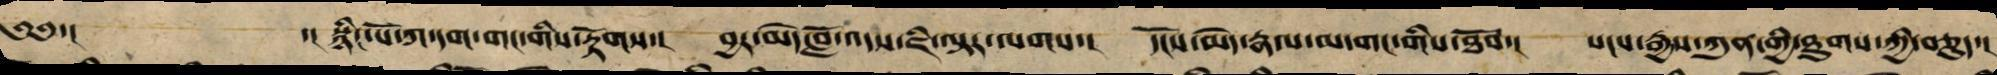༄༅་། ་། སྙིང་པོ་ཀ་དག་གང་གིས་རྟོགས་། བྱར་མེད་བློ་འདས་ཇི་ལྟར་ལགས་། དངོས་མེད་རྣལ་མ་གང་གིས་ཐོབ་། སངས་རྒྱས་ཀུན་གྱི་ཐུགས་ཀྱི་བཅུད་།
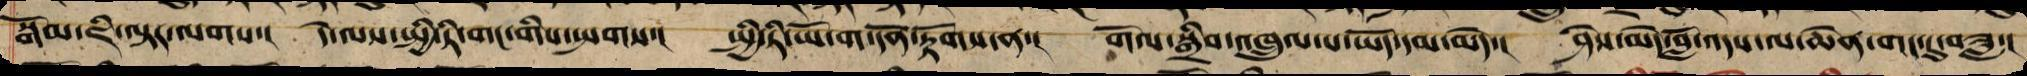སྒོམ་ཇི་ལྟར་ལགས་། དེ་ལས་སྤྱི་ཏི་གང་གིས་སྤགས་། སྤྱི་ཏི་ཡོ་གའི་དོན་རྟོགས་ནས་། གོལ་སྒྲིབ་འཁྲུལ་པ་ཡོད་དམ་མེད་། ཤེས་མེད་བློ་འདས་ལ་ཆེན་གང་དུ་བཟླ་།
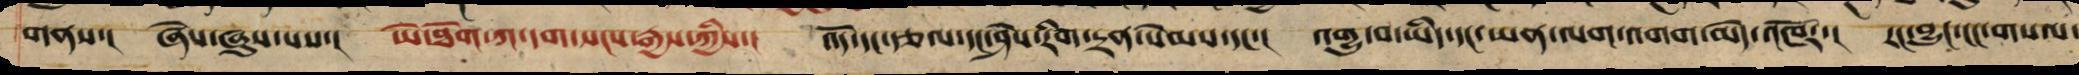གནས་། ཞེས་ཞུས་པས་། ཡེ་ཐོག་ཀ་དག་སངས་རྒྱས་ཀྱིས་། འོད་དང་རྩལ་དང་ཤེས་རིག་དྲན་སེམས་དང་། འགྱུ་བ་ཡིད་དང་ཡན་ལག་འགག་མེད་འཁོར་། རང་བྱུང་ངང་གསལ་
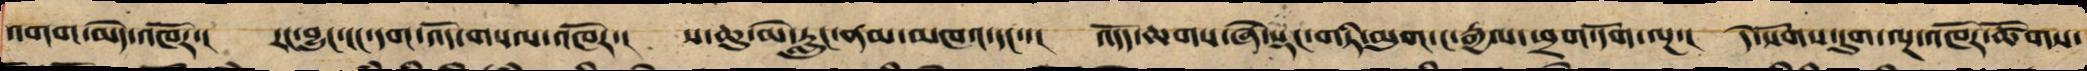འགག་མེད་འཁོར་། རང་བྱུང་ངང་དག་འོད་གསལ་འཁོར་། ས་ཆུ་མེ་རླུང་ནམ་མཁའ་དང་་། འདོད་ཆགས་ཞེ་སྡང་གཏི་མུག་ང་རྒྱལ་ཕྲག་དོག་ལྔ་། དེ་སོགས་དུག་ལྔ་འཁོར་ཚོགས་
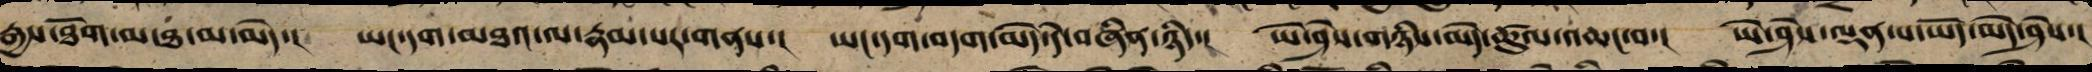རྒྱས་ཐོག་མ་ཐ་མ་མེད་། ཡང་དག་མཐའ་ལ་རྣམ་པར་གནས་། ཡང་དག་བདག་མེད་དེ་བཞིན་ཉིད་། ཡེ་ཤེས་གཉིས་མེད་ཚུལ་འཆང་བ་། ཡེ་ཤེས་ལྡན་པ་ཡོད་མེད་ཤེས་།
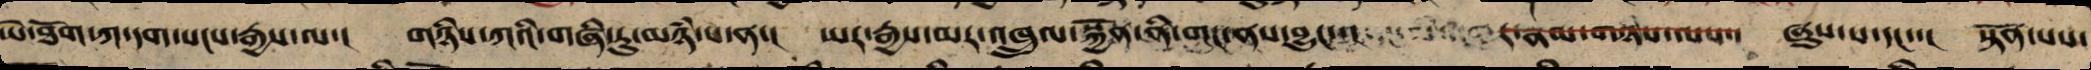ཡེ་ཐོག་ཀ་དག་སངས་རྒྱས་ལ་། གཉིས་ཀའི་གཞི་རུ་མཉཾ་པ་ན་། ཡར་རྒྱས་མར་འཁྲུལ་སྐྱོན་ནི་གང་ནས་བྱུང་་། ཞུས་པ་དང་་། སྟོན་པས་
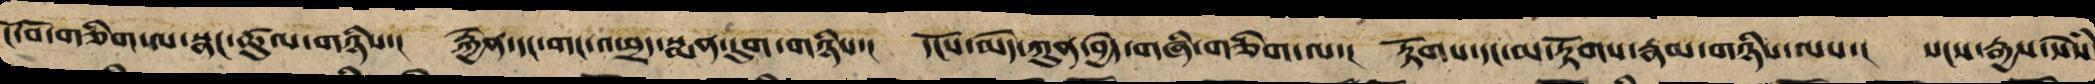ངོ་བོ་གཅིག་ལ་སྣང་ཚུལ་གཉིས་། རྐྱེན་དང་གང་འཕྲད་སྨན་དུག་གཉིས་། དངོས་མེད་ཀུན་བྱེད་གཞི་གཅིག་ལ་། རྟོགས་དང་མ་རྟོགས་རྣམ་གཉིས་ལས་། སངས་རྒྱས་སེཾས
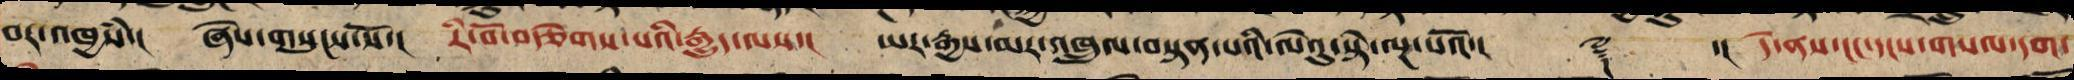བར་འཁྱཾས་། ཞེས་གསུངས་སོ་། རི་བོ་བརྩེགས་པའི་རྒྱུད་ལས་། ཡར་རྒྱས་མར་འཁྲུལ་བསྟན་པའི་ལེའུ་སྟེ་ལྔ་པའོ་།། ༈ ་།། དེ་ནས་ངང་དངས་གསལ་དག་
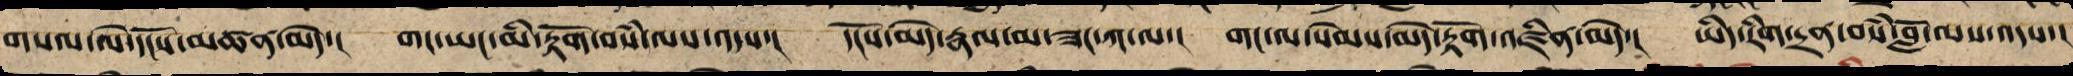སལ་ལེ་དངོས་མཚན་མེད་། གང་ཡང་མི་རྟོག་བསཾ་ལས་འདས་། དངོས་མེད་རྣལ་མ་ཟང་ཀ་ལ་། གང་ལ་སེམས་མེད་རྟོག་འཛིན་མེད་། ཡིད་རིག་དྲན་བསཾ་བློ་ལས་འདས་།
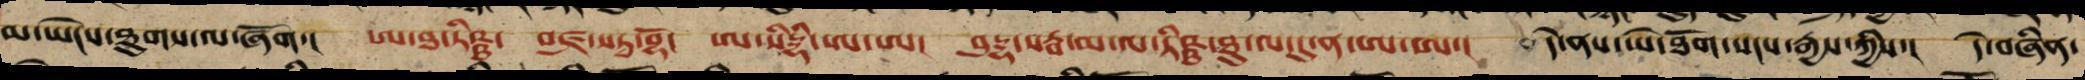མ་ཡེངས་ཐུགས་ལ་ཞོག། ཨ་ཐ་ཏིཥྛ་ བཛྲ་སཏྭ་བྷོ་ ཨ་སིདྡྷི་ཨ་ཨ། བུཌྜྷ་སརྦ་མ་ལ་ཏིཥྛ་ཐུ་ལ་དུ་ན་ཨ་ཨ་། དེ་ནས་ཡེ་ཐོག་སངས་རྒྱས་ཀྱིས་། དེ་བཞིན་
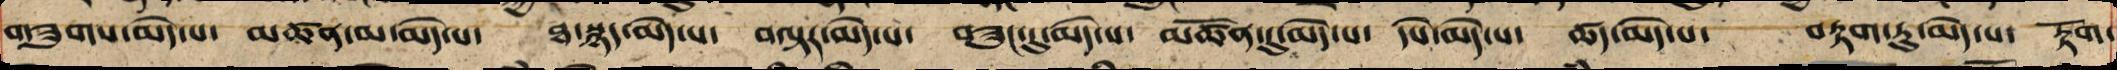གཟུགས་མེད་པ་ མཚན་མ་མེད་པ་ ཐ་སྙད་མེད་པ་ བལྟར་མེད་པ་ གཟུང་དུ་མེད་པ་ མཚོན་དུ་མེད་པ་ དཔེ་མེད་པ་ ཚད་མེད་པ་ བརྟག་ཏུ་མེད་པ་ རྟོག་
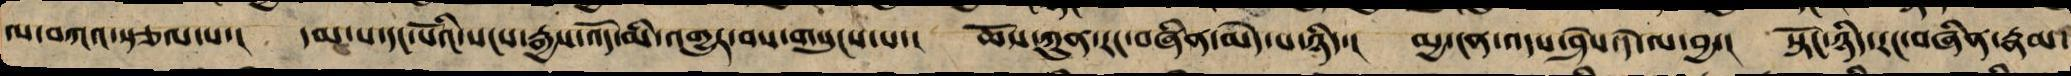ལ་བཀའ་སྩལ་པ་། དམ་པ་དང་པོའི་སངས་རྒྱས་འོད་མི་འགྱུར་བས་གསུངས་པ་། ཆོས་ཀུན་རང་བཞིན་མེད་པ་ཉིད་། མྱ་ངན་འདས་ཤེས་དེ་ལ་བྱ་། སྟོང་ཉིད་རང་བཞིན་རྣམ་
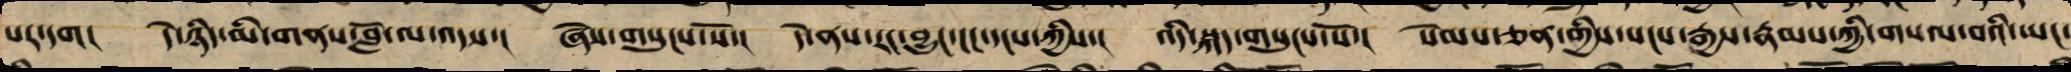པར་དག། དེ་ཉིད་མི་གནས་བློ་ལས་འདས་། ཞེས་གསུངས་སོ་། དེ་ནས་རང་བྱུང་ངང་དངས་ཀྱིས་། འདི་སྐད་གསུངས་སོ་། སེམས་ཅན་གྱིས་སངས་རྒྱས་རྣམས་ཀྱི་གསལ་བའི་ཡང་
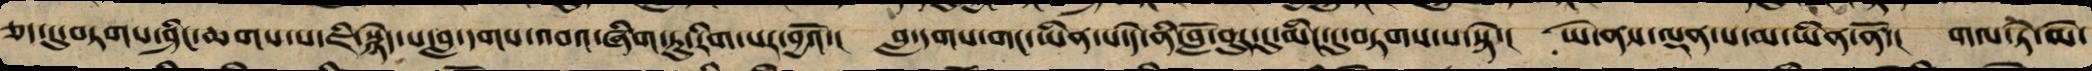ཅད་དུ་བཏགས་ཤིང་ཆགས་པ་ཇི་སྙེད་པ་བླ་དགས་འབའ་ཞིག་ཏུ་རིག་པར་བྱའོ་། བླ་དགས་གང་ཡིན་པ་དེ་ནི་གློ་བུར་དུ་མིང་དུ་བཏགས་པ་སྟེ་། ཡེ་ནས་ལྡན་པ་མ་ཡིན་ནོ་། གལ་ཏེ་མེ་
